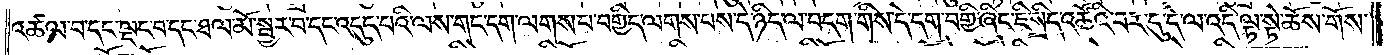འཚལ་བ་དང་ལྡང་བ་དང་ཐལ་མོ་སྦྱར་བ་དང་འདུད་པའི་ལས་གང་དག་ལགས་པ་བགྱིད་ལགས་པས་དེ་ཉིད་ལ་བདག་གིས་དེ་དག་བགྱི་ཞིང་ཇི་སྲིད་འཚོའི་བར་དུ་དེ་ལ་འདི་ལྟ་སྟེ་ཆོས་གོས་
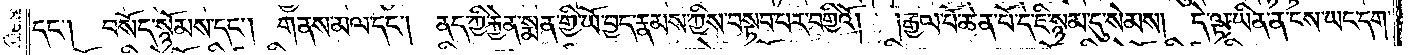དང༌། བསོད་སྙོམས་དང༌། གནས་མལ་དང༌། ནད་ཀྱི་རྐྱེན་སྨན་གྱི་ཡོ་བྱད་རྣམས་ཀྱིས་བསྟབ་པར་བགྱིའོ། །རྒྱལ་པོ་ཆེན་པོ་དེ་ཇི་སྙམ་དུ་སེམས། དེ་ལྟ་ཡིན་ན་ངས་ཡང་དག་
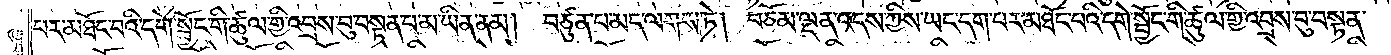པར་མཐོང་བའི་དགེ་སྦྱོང་གི་ཚུལ་གྱི་འབྲས་བུ་བསྟན་པ་མ་ཡིན་ནམ། བཙུན་པ་མད་ལགས་ཏེ། བཅོམ་ལྡན་འདས་ཀྱིས་ཡང་དག་པར་མཐོང་བའི་དགེ་སྦྱོང་གི་ཚུལ་གྱི་འབྲས་བུ་བསྟན་
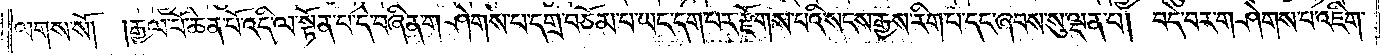ལགས་སོ། །རྒྱལ་པོ་ཆེན་པོ་འདི་ལ་སྟོན་པ་དེ་བཞིན་གཤེགས་པ་དགྲ་བཅོམ་པ་ཡང་དག་པར་རྫོགས་པའི་སངས་རྒྱས་རིག་པ་དང་ཞབས་སུ་ལྡན་པ། བདེ་བར་གཤེགས་པ་འཇིག་
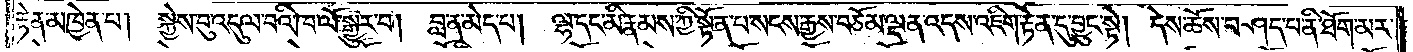རྟེན་མཁྱེན་པ།   སྐྱེས་བུ་འདུལ་བའི་ཁ་ལོ་སྒྱུར་བ། བླ་ན་མེད་པ། ལྷ་དང་མི་རྣམས་ཀྱི་སྟོན་པ་སངས་རྒྱས་བཅོམ་ལྡན་འདས་འཇིག་རྟེན་དུ་བྱུང་སྟེ། དེས་ཆོས་བཤད་པ་ནི་ཐོག་མར་
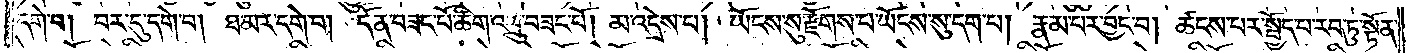དགེ་བ། བར་དུ་དགེ་བ། ཐ་མར་དགེ་བ། དོན་བཟང་པོ་ཚིག་འབྲུ་བཟང་པོ། མ་འདྲེས་པ། ཡོངས་སུ་རྫོགས་པ་ཡོངས་སུ་དག་པ། རྣམ་པར་བྱང་བ། ཚངས་པར་སྤྱོད་པ་རབ་ཏུ་སྟོན་
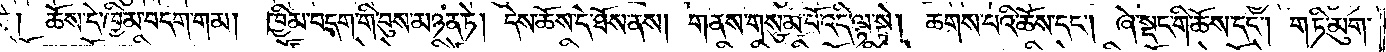ཆོས་དེ་ཁྱིམ་བདག་གམ། ཁྱིམ་བདག་གི་བུས་མཉན་ཏེ། དེས་ཆོས་དེ་ཐོས་ནས། གནས་གསུམ་པོ་འདི་ལྟ་སྟེ། ཆགས་པའི་ཆོས་དང༌། ཞེ་སྡང་གི་ཆོས་དང༌། གཏི་མུག་
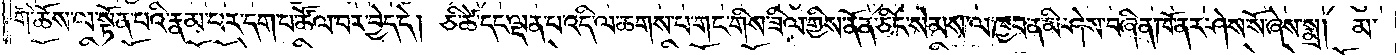གི་ཆོས་ལ་སྟོན་པའི་རྣམ་པར་དག་པ་ཚོལ་བར་བྱེད་དེ། ཅི་ཚེ་དང་ལྡན་པ་འདི་ལ་ཆགས་པ་གང་གིས་ཟིལ་གྱིས་ནོན་ཅིང་སེམས་ལ་ཁྱབ་ན་མི་ཤེས་བཞིན་ཁོ་ནར་ཤེས་སོ་ཞེས་སྨྲ། མ་
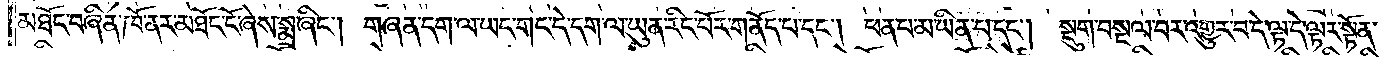མཐོང་བཞིན་ཁོ་ནར་མཐོང་ངོ་ཞེས་སྨྲ་ཞིང༌། གཞན་དག་ལ་ཡང་དག་དེ་དག་ལ་ཡུན་རིང་པོར་གནོད་པ་དང༌། ཕན་པ་མ་ཡིན་པ་དང༌། སྡུག་བསྔལ་བར་འགྱུར་པ་དེ་ལྟ་དེ་ལྟར་སྟོན་
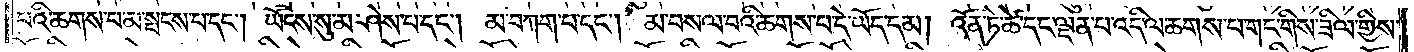པའི་ཆགས་པ་མ་སྤངས་པ་དང༌། ཡོངས་སུ་མ་ཤེས་པ་དང༌། མ་བཀག་པ་དང༌། མ་བསལ་བའི་ཆགས་པ་དེ་ཡོད་དམ། འོན་ཏེ་ཚེ་དང་ལྡན་པ་འདི་ལ་ཆགས་པ་གང་གིས་ཟིལ་གྱིས་
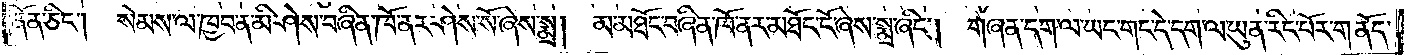ནོན་ཅིང༌། སེམས་ལ་ཁྱབ་ན་མི་ཤེས་བཞིན་ཁོ་ནར་ཤེས་སོ་ཞེས་སྨྲ། མ་མཐོང་བཞིན་ཁོ་ནར་མཐོང་ངོ་སྨྲ་ཞིང༌། གཞན་དག་ལ་ཡང་གང་དེ་དག་ལ་ཡུན་རིང་པོར་གནོད་
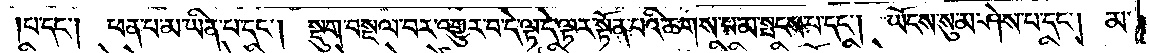པ་དང༌། ཕན་པ་མ་ཡིན་པ་དང༌། སྡུག་བསྔལ་བར་འགྱུར་བ་དེ་ལྟ་དེ་ལྟར་སྟོན་པའི་ཆགས་པ་མ་སྤངས་པ་དང༌། ཡོངས་སུ་མ་ཤེས་པ་དང༌། མ་
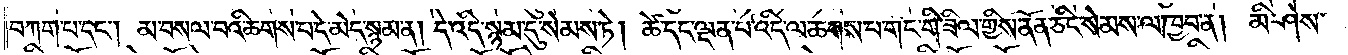བཀག་པ་དང༌། མ་བསལ་བའི་ཆགས་པ་དེ་མེད་སྙམ་ན། དེ་འདི་སྙམ་དུ་སེམས་ཏེ། ཚེ་དང་ལྡན་པ་འདི་ལ་ཆགས་པ་གང་གི་ཟིལ་གྱིས་ནོན་ཅིང་སེམས་ལ་ཁྱབ་ན། མི་ཤེས་
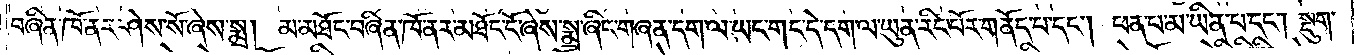བཞིན་ཁོ་ནར་ཤེས་སོ་ཞེས་སྨྲ། མ་མཐོང་བཞིན་ཁོ་ནར་མཐོང་ངོ་ཞེས་སྨྲ་ཞིང་གཞན་དག་ལ་ཡང་གང་དེ་དག་ལ་ཡུན་རིང་པོར་གནོད་པ་དང༌། ཕན་པ་མ་ཡིན་པ་དང༌། སྡུག་
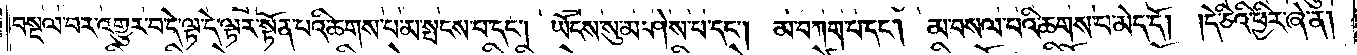བསྔལ་བར་འགྱུར་བ་དེ་ལྟ་དེ་ལྟར་སྟོན་པའི་ཆགས་པ་མ་སྤངས་པ་དང༌། ཡོངས་སུ་མ་ཤེས་པ་དང༌། མ་བཀག་པ་དང༌། མ་བསལ་བའི་ཆགས་པ་མེད་དོ། །དེའི་ཅིའི་ཕྱིར་ཞེ་ན།
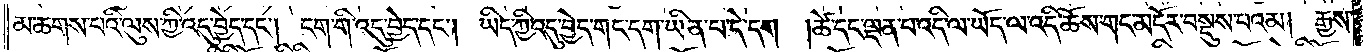མ་ཆགས་པའི་ལུས་ཀྱི་འདུ་བྱེད་དང༌། ངག་གི་འདུ་བྱེད་དང༌། ཡིད་ཀྱི་འདུ་བྱེད་གང་དག་ཡིན་པ་དེ་དག །ཚེ་དང་ལྡན་པ་འདི་ལ་ཡོད་ལ་འདི་ཆོས་གང་མདོར་བསྡུས་པའམ། རྒྱས་
